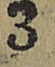3
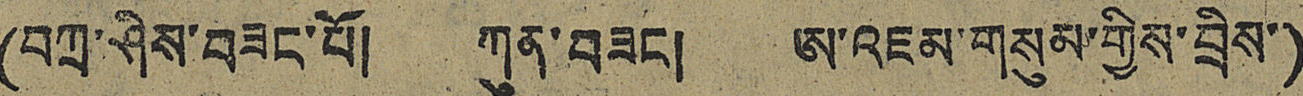(བཀྲ་ཤིས་བཟང་པོ། ཀུན་བཟང། ཨ་འཇམ་གསུམ་གྱིས་བྲིས་)
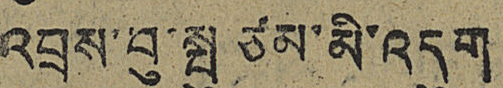འབྲས་བུ་སྤུ ཙམ་མི་འདུག
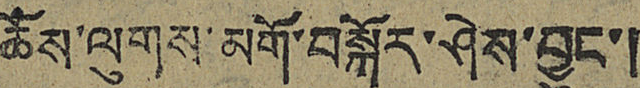ཆོས་ལུགས་མགོ་བསྐོར་ཤེས་བྱུང་།
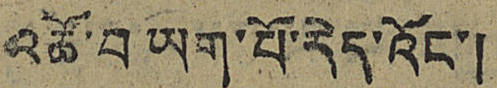འཚོ་བ ཡག་པོ་རེད་འོང་།
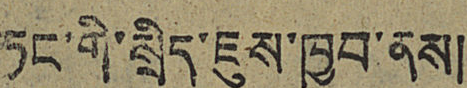ཏང་གི་སྲིད་ཇུས་ཁྱབ་ནས།
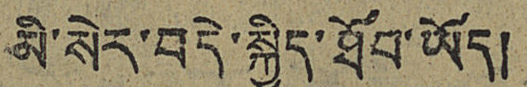མི་སེར་བདེ་སྐྱིད་ཐོབ་ཡོད།
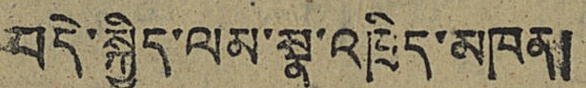བདེ་སྐྱིད་ལམ་སྣ་འཁྲིད་མཁན།
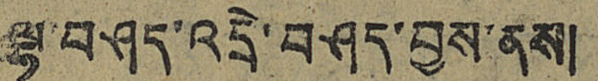ལྷ་བཤད་འདྲེ་བཤད་བྱས་ནས།
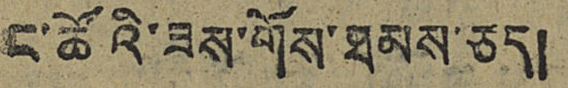ང་ཚོའི་ཟས་གོས་ཐམས་ཅད།
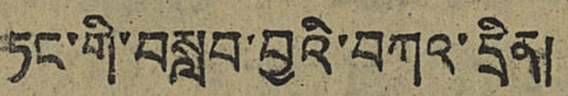ཏང་གི་བསླབ་བྱའི་བཀའ་དྲིན།
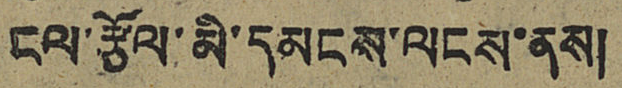ངལ་རྩོལ་མི་དམངས་ལངས་ནས།
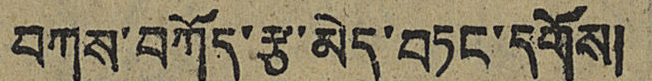བཀས་བཀོད་རྩ་མེད་བཏང་དགོས།
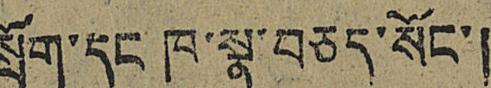སྲོག་དང ཁ་སྣ་བཅད་སོང་།
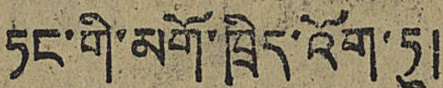ཏང་གི་མགོ་ཁྲིད་འོག་ཏུ།
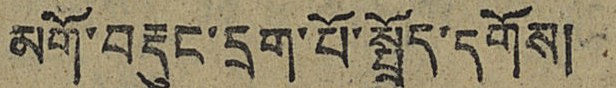མགོ་བརྡུང་དྲག་པོ་སྤྲོད་དགོས།
